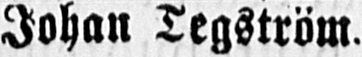Johan Tegström.
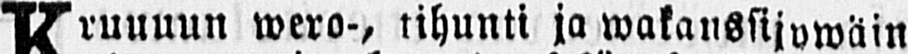Kruuuun wero-, tihunti ja wakanssijywäin
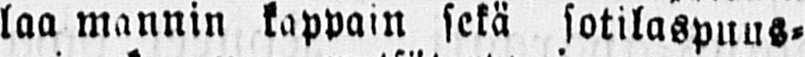laa mannin kappain sekä sotilaspuus-
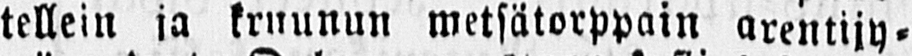tellein ja kruunun metsätorppain arentijy-
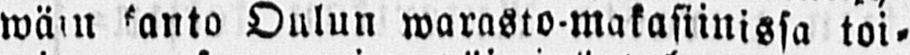wäin kanto Oulun warasto makasiinissa toi-
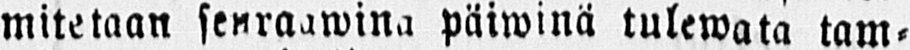mitetaan senraawina päiwinä tulewata tam-
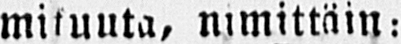mikuuta, nimittäin:
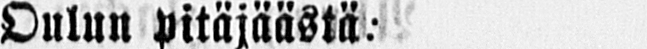Oulun pitäjäästä::
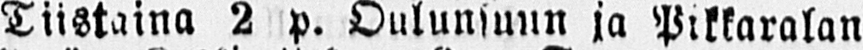Tiistaina 2 p. Oulunsuun ja Pikkaralan
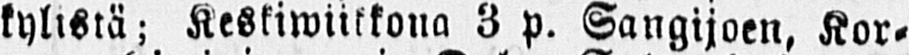kylistä; Keskiwiikkona 3 p. Sangijoen, Kor-
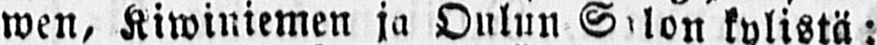wen, Kiwiniemen ja Oulun Salon kylistä;
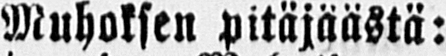Muhoksen pitäjäästä:
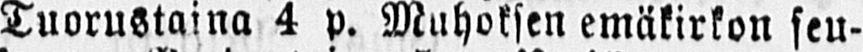Tuorustaina 4 p. Muhoksen emäkirkon seu-
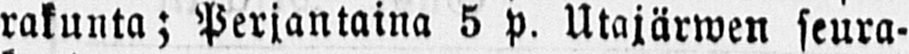rakunta; Perjantaina 5 p. Utajärwen seura-
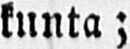kunta;
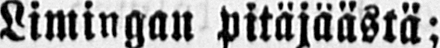Limingan pitäjäästä;
